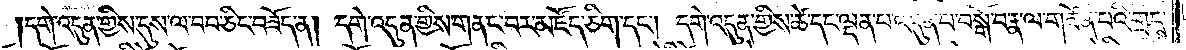དགེ་འདུན་གྱིས་དུས་ལ་བབ་ཅིང་བཟོད་ན། དགེ་འདུན་གྱིས་གནང་བར་མཛོད་ཅིག་དང༌། དགེ་འདུན་གྱིས་ཚེ་དང་ལྡན་པ་འདུན་པ་བསྒོ་བ་རྣ་ལ་གཟོན་པའི་གྲངས་
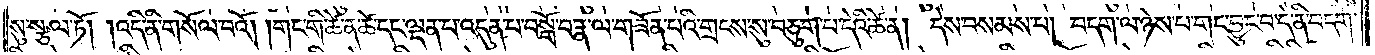སུ་སྩལ་ཏོ། །འདི་ནི་གསོལ་བའོ། །གང་གི་ཚེ་ན་ཚེ་དང་ལྡན་པ་འདུན་པ་བསྒོ་བ་རྣ་ལ་གཟོན་པའི་གྲངས་སུ་བཅུག་པ་དེའི་ཚེ་ན། དེས་བསམས་པ། བདག་ལ་ཉེས་པ་གང་བྱུང་བ་དེ་ནི་བདག་
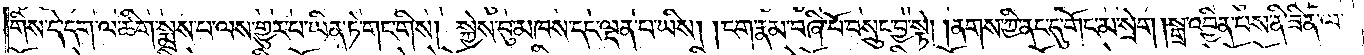གིས་དེ་དག་ལ་ཚིག་སྨྲས་པ་ལས་གྱུར་པ་ཡིན་ཏེ་གང་གིས། སྐྱེས་བུ་མཁས་དང་ལྡན་པ་ཡིས། །ངག་རྣམ་བཞི་པོ་བསྲུང་བྱ་སྟེ། །ནགས་ཀྱི་ནང་དུ་གོང་མ་སྲེག །སྒྲ་འབྱིན་པས་ནི་ཟིན་ལ་
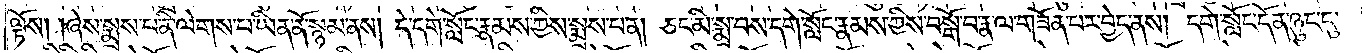ལྟོས། །ཞེས་སྨྲས་པ་ནི་ལེགས་པ་ཡིན་ནོ་སྙམ་ནས། དེ་དགེ་སློང་རྣམས་ཀྱིས་སྨྲས་པ་ན། ཅང་མི་སྨྲ་བས་དགེ་སློང་རྣམས་ཀྱིས་བསྒོ་བ་རྣ་ལ་གཟོན་པར་བྱེད་ནས། དགེ་སློང་དོན་ཉུང་ངུ་
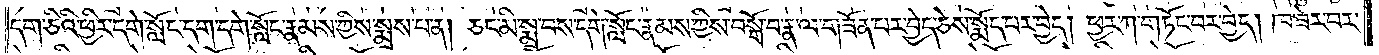དག་ཅིའི་ཕྱིར་དགེ་སློང་དག་དགེ་སློང་རྣམས་ཀྱིས་སྨྲས་པ་ན། ཅང་མི་སྨྲ་བས་དགེ་སློང་རྣམས་ཀྱིས་བསྒོ་བ་རྣ་ལ་གཟོན་པར་བྱེད་ཅེས་སྨོད་པར་བྱེད། ཕྱར་ཀ་གཏོང་བར་བྱེད། ཁ་ཟེར་བར་
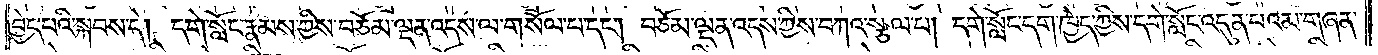བྱེད་པའི་སྐབས་དེ། དགེ་སློང་རྣམས་ཀྱིས་བཅོམ་ལྡན་འདས་ལ་གསོལ་པ་དང༌། བཅོམ་ལྡན་འདས་ཀྱིས་བཀའ་སྩལ་པ། དགེ་སློང་དག་ཁྱེད་ཀྱིས་དགེ་སློང་འདུན་པའམ་གཞན་
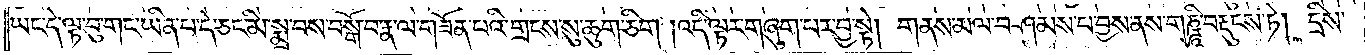ཡང་དེ་ལྟ་བུ་གང་ཡིན་པ་དེ་ཅང་མི་སྨྲ་བས་བསྒོ་བ་རྣ་ལ་གཟོན་པའི་གྲངས་སུ་ཆུག་ཅིག །འདི་ལྟར་གཞུག་པར་བྱ་སྟེ། གནས་མལ་བཤམས་པ་བྱས་ནས་གཎྜཱི་བརྡུངས་ཏེ། དྲིས་
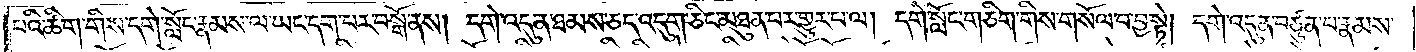པའི་ཚིག་གིས་དགེ་སློང་རྣམས་ལ་ཡང་དག་པར་བསྒོ་ནས། དགེ་འདུན་ཐམས་ཅད་འདུག་ཅིང་མཐུན་པར་གྱུར་པ་ལ། དགེ་སློང་གཅིག་གིས་གསོལ་བ་བྱ་སྟེ། དགེ་འདུན་བཙུན་པ་རྣམས་
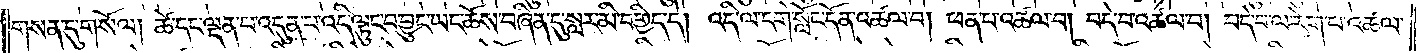གསན་དུ་གསོལ། ཚེ་དང་ལྡན་པ་འདུན་པ་འདི་ལྟུང་བ་བྱུང་ཡང་ཆོས་བཞིན་དུ་སླར་མི་བགྱིད་དེ། འདི་ལ་དགེ་སློང་དོན་འཚལ་བ། ཕན་པ་འཚལ་བ། བདེ་བ་འཚལ་བ། བདེ་བ་ལ་རེག་པ་འཚལ་
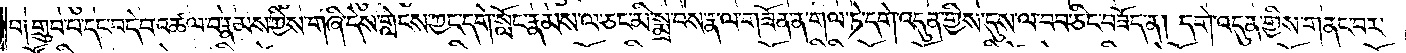བ༑ གྲུབ་པ་དང་བདེ་བ་འཚལ་བ་རྣམས་ཀྱིས་གཞི་དེས་གླེངས་ཀྱང་དགེ་སློང་རྣམས་ལ་ཅང་མི་སྨྲ་བས་རྣ་ལ་གཟོན་ན་གལ་ཏེ་དགེ་འདུན་གྱིས་དུས་ལ་བབ་ཅིང་བཟོད་ན། དགེ་འདུན་གྱིས་གནང་བར་
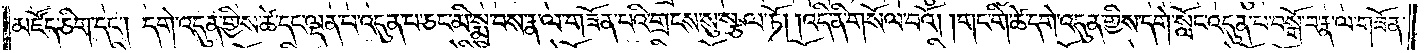མཛོད་ཅིག་དང༌། དགེ་འདུན་གྱིས་ཚེ་དང་ལྡན་པ་འདུན་པ་ཅང་མི་སྨྲ་བས་རྣ་ལ་གཟོན་པའི་གྲངས་སུ་སྩལ་ཏོ། །འདི་ནི་གསོལ་བའོ། །གང་གི་ཚེ་དགེ་འདུན་གྱིས་དགེ་སློང་འདུན་པ་བསྒོ་བ་རྣ་ལ་གཟོན་
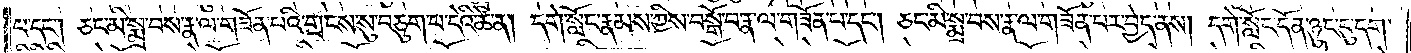པ་དང༌། ཅང་མི་སྨྲ་བས་རྣ་ལ་གཟོན་པའི་གྲངས་སུ་བཅུག་པ་དེའི་ཚེ་ན། དགེ་སློང་རྣམས་ཀྱིས་བསྒོ་བ་རྣ་ལ་གཟོན་པ་དང༌། ཅང་མི་སྨྲ་བས་རྣ་ལ་གཟོན་པར་བྱེད་ནས། དགེ་སློང་དོན་ཉུང་ངུ་དག་
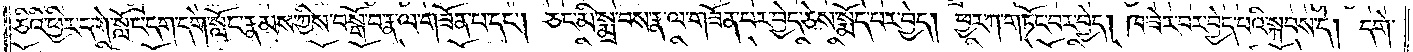ཅིའི་ཕྱིར་དགེ་སློང་དག་དགེ་སློང་རྣམས་ཀྱིས་བསྒོ་བ་རྣ་ལ་གཟོན་པ་དང༌། ཅང་མི་སྨྲ་བས་རྣ་ལ་གཟོན་པར་བྱེད་ཅེས་སྨོད་པར་བྱེད། ཕྱར་ཀ་གཏོང་བར་བྱེད། ཁ་ཟེར་བར་བྱེད་པའི་སྐབས་དེ། དགེ་
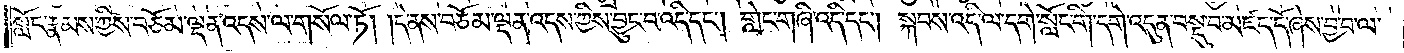སློང་རྣམས་ཀྱིས་བཅོམ་ལྡན་འདས་ལ་གསོལ་ཏོ། །དེ་ནས་བཅོམ་ལྡན་འདས་ཀྱིས་བྱུང་བ་འདི་དང༌། གླེང་གཞི་འདི་དང༌། སྐབས་འདི་ལ་དགེ་སློང་གི་དགེ་འདུན་བསྡུ་བ་མཛད་དོ་ཞེས་བྱ་བ་ལ་
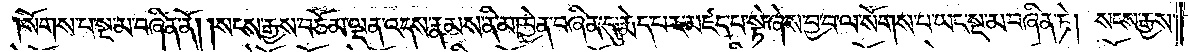སོགས་པ་སྔ་མ་བཞིན་ནོ། །སངས་རྒྱས་བཅོམ་ལྡན་འདས་རྣམས་ནི་མཁྱེན་བཞིན་དུ་རྨེད་པར་མཛད་པ་སྟེ་ཞེས་བྱ་བ་ལ་སོགས་པ་ཡང་སྔ་མ་བཞིན་ཏེ། སངས་རྒྱས་
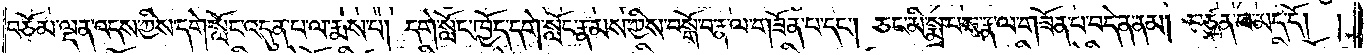བཅོམ་ལྡན་འདས་ཀྱིས་དགེ་སློང་འདུན་པ་ལ་རྨས་པ། དགེ་སློང་ཁྱོད་དགེ་སློང་རྣམས་ཀྱིས་བསྒོ་བ་རྣ་ལ་གཟོན་པ་དང༌། ཅང་མི་སྨྲ་བས་རྣ་ལ་གཟོན་པ་བདེན་ནམ། བཙུན་པ་མད་དོ། །
